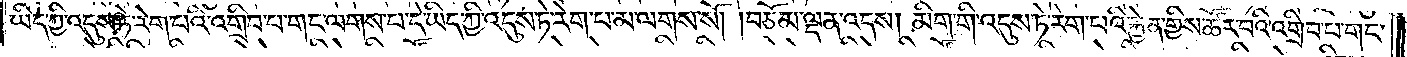ཡིད་ཀྱི་འདུས་ཏེ་རེག་པའི་འགྲིབ་པ་གང་ལགས་པ་དེ་ཡིད་ཀྱི་འདུས་ཏེ་རེག་པ་མ་ལགས་སོ། །བཅོམ་ལྡན་འདས། མིག་གི་འདུས་ཏེ་རེག་པའི་རྐྱེན་གྱིས་ཚོར་བའི་འགྲིབ་པ་གང་
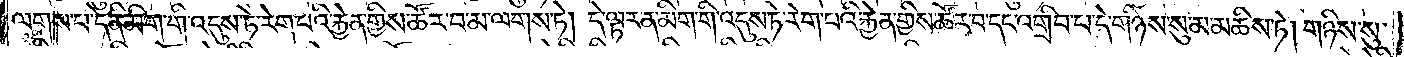ལགས་པ་དེ་ནི་མིག་གི་འདུས་ཏེ་རེག་པའི་རྐྱེན་གྱིས་ཚོར་བ་མ་ལགས་ཏེ། དེ་ལྟར་ན་མིག་གི་འདུས་ཏེ་རེག་པའི་རྐྱེན་གྱིས་ཚོར་བ་དང་འགྲིབ་པ་དེ་གཉིས་སུ་མ་མཆིས་ཏེ། གཉིས་སུ་
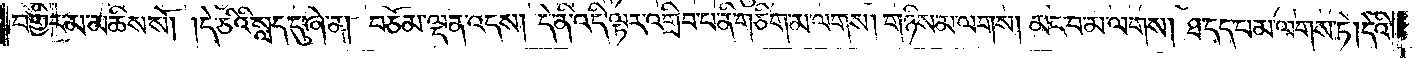བགྱིར་མ་མཆིས་སོ། །དེ་ཅིའི་སླད་དུ་ཞེ་ན། བཅོམ་ལྡན་འདས། དེ་ནི་འདི་ལྟར་འགྲིབ་པ་ནི་གཅིག་མ་ལགས། གཉིས་མ་ལགས། མང་བ་མ་ལགས། ཐ་དད་པ་མ་ལགས་ཏེ། དེའི་
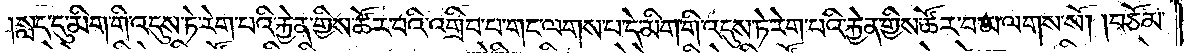སླད་དུ་མིག་གི་འདུས་ཏེ་རེག་པའི་རྐྱེན་གྱིས་ཚོར་བའི་འགྲིབ་པ་གང་ལགས་པ་དེ་མིག་གི་འདུས་ཏེ་རེག་པའི་རྐྱེན་གྱིས་ཚོར་བ་མ་ལགས་སོ། །བཅོམ་
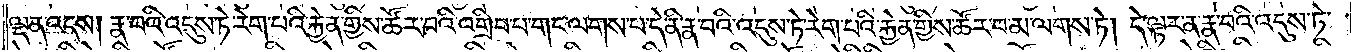ལྡན་འདས། རྣ་བའི་འདུས་ཏེ་རེག་པའི་རྐྱེན་གྱིས་ཚོར་བའི་འགྲིབ་པ་གང་ལགས་པ་དེ་ནི་རྣ་བའི་འདུས་ཏེ་རེག་པའི་རྐྱེན་གྱིས་ཚོར་བ་མ་ལགས་ཏེ། དེ་ལྟར་ན་རྣ་བའི་འདུས་ཏེ་
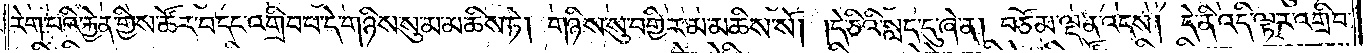རེག་པའི་རྐྱེན་གྱིས་ཚོར་བ་དང་འགྲིབ་པ་དེ་གཉིས་སུ་མ་མཆིས་ཏེ། གཉིས་སུ་བགྱིར་མ་མཆིས་སོ། །དེ་ཅིའི་སླད་དུ་ཞེ་ན། བཅོམ་ལྡན་འདས། དེ་ནི་འདི་ལྟར་འགྲིབ་པ་
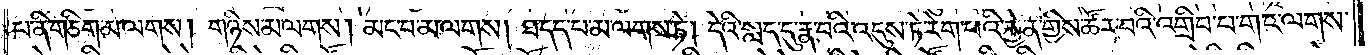ནི་གཅིག་མ་ལགས། གཉིས་མ་ལགས། མང་བ་མ་ལགས། ཐ་དད་པ་མ་ལགས་ཏེ། དེའི་སླད་དུ་རྣ་བའི་འདུས་ཏེ་རེག་པའི་རྐྱེན་གྱིས་ཚོར་བའི་འགྲིབ་པ་གང་ལགས་
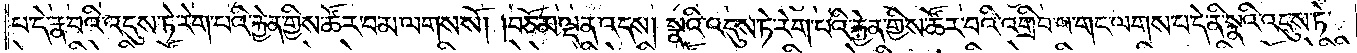པ་དེ་རྣ་བའི་འདུས་ཏེ་རེག་པའི་རྐྱེན་གྱིས་ཚོར་བ་མ་ལགས་སོ། །བཅོམ་ལྡན་འདས། སྣའི་འདུས་ཏེ་རེག་པའི་རྐྱེན་གྱིས་ཚོར་བའི་འགྲིབ་པ་གང་ལགས་པ་དེ་ནི་སྣའི་འདུས་ཏེ་
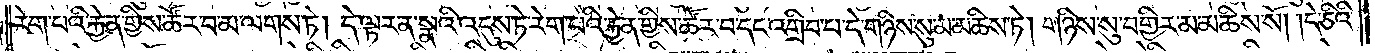རེག་པའི་རྐྱེན་གྱིས་ཚོར་བ་མ་ལགས་ཏེ། དེ་ལྟར་ན་སྣའི་འདུས་ཏེ་རེག་པའི་རྐྱེན་གྱིས་ཚོར་བ་དང་འགྲིབ་པ་དེ་གཉིས་སུ་མ་མཆིས་ཏེ། གཉིས་སུ་བགྱིར་མ་མཆིས་སོ། །དེ་ཅིའི་
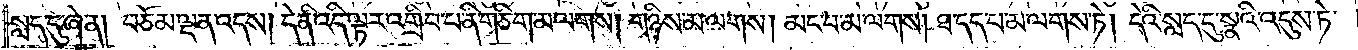སླད་དུ་ཞེ་ན། བཅོམ་ལྡན་འདས། དེ་ནི་འདི་ལྟར་འགྲིབ་པ་ནི་གཅིག་མ་ལགས། གཉིས་མ་ལགས། མང་བ་མ་ལགས། ཐ་དད་པ་མ་ལགས་ཏེ། དེའི་སླད་དུ་སྣའི་འདུས་ཏེ་
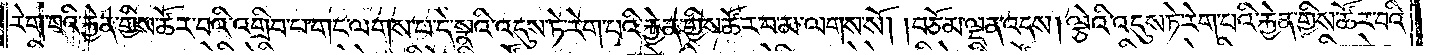རེག་པའི་རྐྱེན་གྱིས་ཚོར་བའི་འགྲིབ་པ་གང་ལགས་པ་དེ་སྣའི་འདུས་ཏེ་རེག་པའི་རྐྱེན་གྱིས་ཚོར་བ་མ་ལགས་སོ། །བཅོམ་ལྡན་འདས། ལྕེའི་འདུས་ཏེ་རེག་པའི་རྐྱེན་གྱིས་ཚོར་བའི་
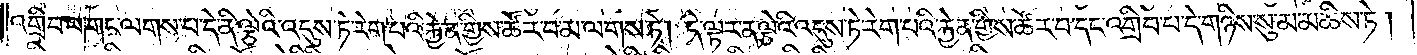འགྲིབ་པ་གང་ལགས་པ་དེ་ནི་ལྕེའི་འདུས་ཏེ་རེག་པའི་རྐྱེན་གྱིས་ཚོར་བ་མ་ལགས་ཏེ། དེ་ལྟར་ན་ལྕེའི་འདུས་ཏེ་རེག་པའི་རྐྱེན་གྱིས་ཚོར་བ་དང་འགྲིབ་པ་དེ་གཉིས་སུ་མ་མཆིས་ཏེ།
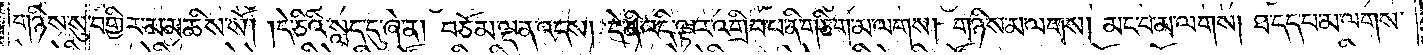གཉིས་སུ་བགྱིར་མ་མཆིས་སོ། །དེ་ཅིའི་སླད་དུ་ཞེ་ན། བཅོམ་ལྡན་འདས། དེ་ནི་འདི་ལྟར་འགྲིབ་པ་ནི་གཅིག་མ་ལགས། གཉིས་མ་ལགས། མང་བ་མ་ལགས། ཐ་དད་པ་མ་ལགས་
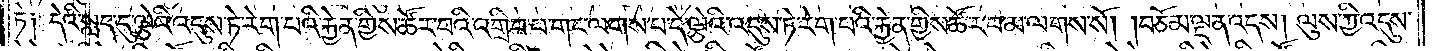ཏེ༑ དེའི་སླད་དུ་ལྕེའི་འདུས་ཏེ་རེག་པའི་རྐྱེན་གྱིས་ཚོར་བའི་འགྲིབ་པ་གང་ལགས་པ་དེ་ལྕེའི་འདུས་ཏེ་རེག་པའི་རྐྱེན་གྱིས་ཚོར་བ་མ་ལགས་སོ། །བཅོམ་ལྡན་འདས། ལུས་ཀྱི་འདུས་
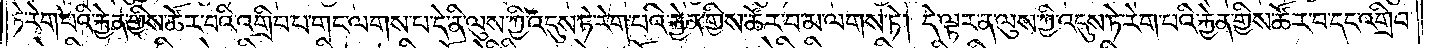ཏེ་རེག་པའི་རྐྱེན་གྱིས་ཚོར་བའི་འགྲིབ་པ་གང་ལགས་པ་དེ་ནི་ལུས་ཀྱི་འདུས་ཏེ་རེག་པའི་རྐྱེན་གྱིས་ཚོར་བ་མ་ལགས་ཏེ། དེ་ལྟར་ན་ལུས་ཀྱི་འདུས་ཏེ་རེག་པའི་རྐྱེན་གྱིས་ཚོར་བ་དང་འགྲིབ་
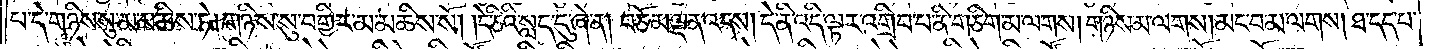པ་དེ་གཉིས་སུ་མ་མཆིས་ཏེ། གཉིས་སུ་བགྱིར་མ་མཆིས་སོ། །དེ་ཅིའི་སླད་དུ་ཞེ་ན། བཅོམ་ལྡན་འདས། དེ་ནི་འདི་ལྟར་འགྲིབ་པ་ནི་གཅིག་མ་ལགས། གཉིས་མ་ལགས། མང་བ་མ་ལགས། ཐ་དད་པ་
